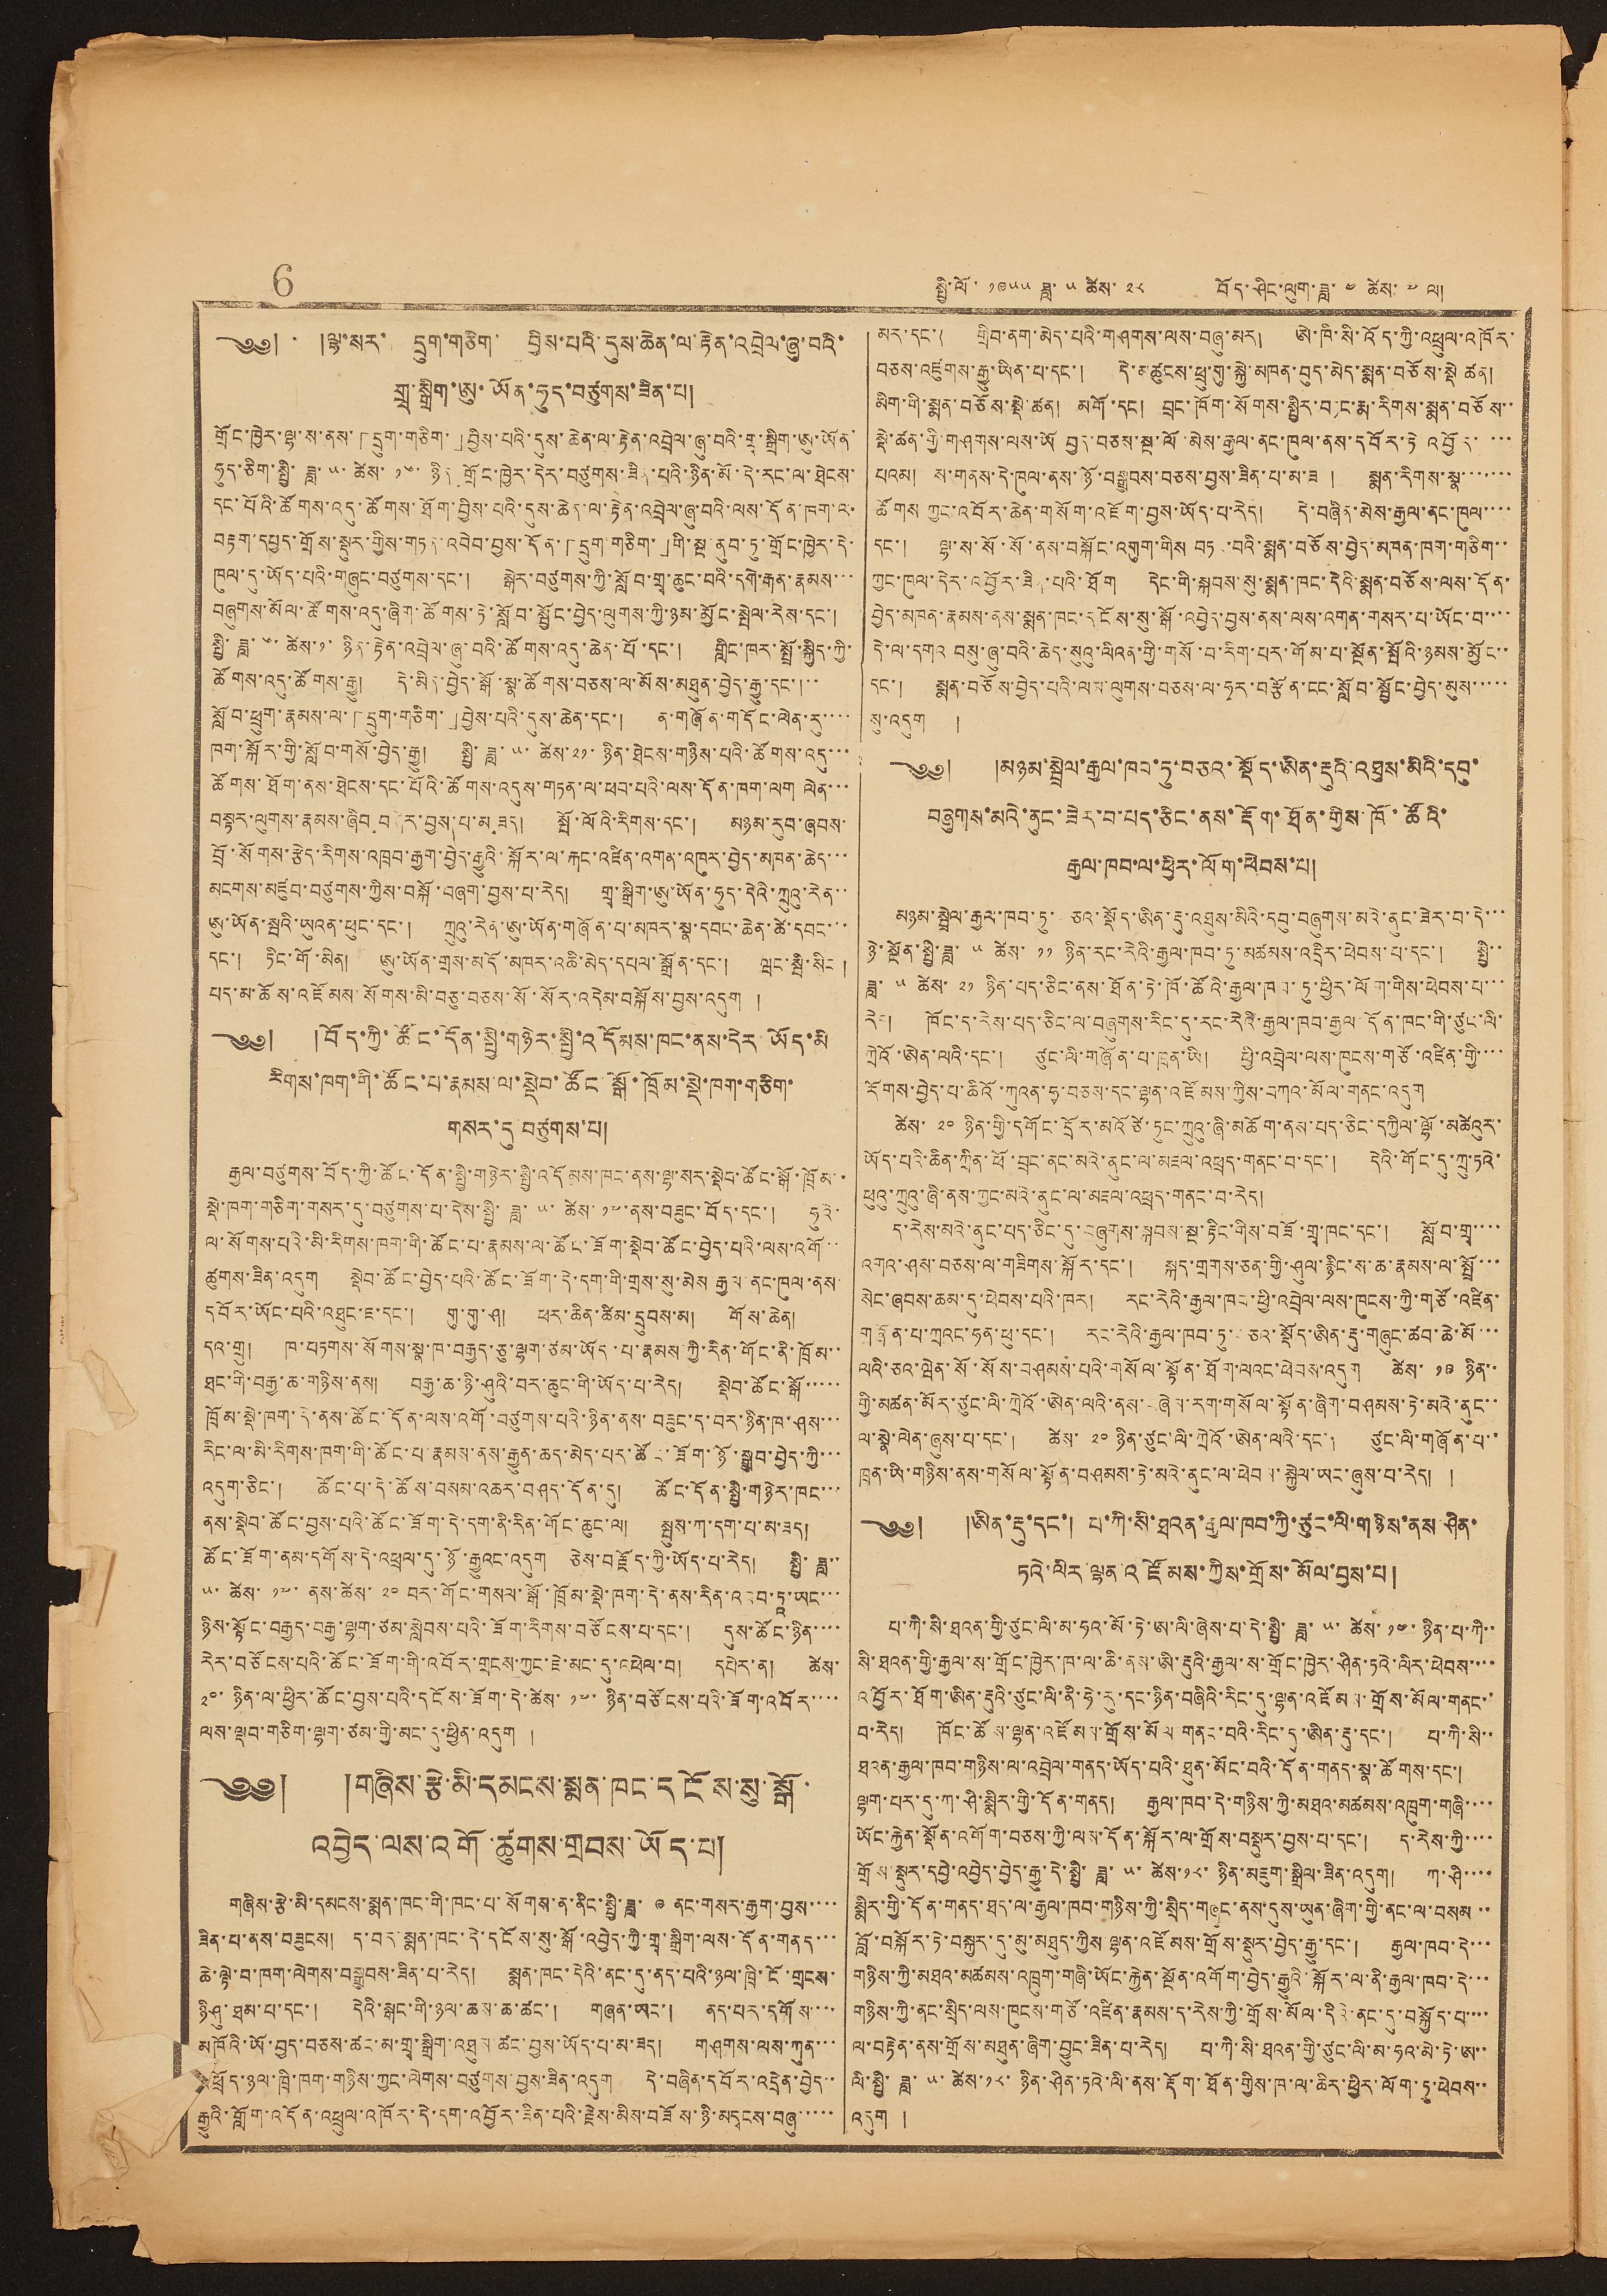6 སྤྱི་ལོ་ ༡༩༥༥ ཟླ་ ༥ ཚེས་ ༢༨ བོད་ཤིང་ལུག་ཟླ་ ༤ ཚེས་ ༧ ལ།
༄༅། །ལྷ་སར་ དྲུག་གཅིག་ བྱིས་པའི་དུས་ཆེན་ལ་རྟེན་འབྲེལ་ཞུ་བའི་
གྲྭ་སྒྲིག་ཨུ་ཡོན་ཧུད་བཙུགས་ཟིན་པ།
གྲོང་ཁྱེར་ལྷ་ས་ནས་「དྲུག་གཅིག་」བྱིས་པའི་དུས་ཆེན་ལ་རྟེན་འབྲེལ་ཞུ་བའི་གྲྭ་སྒྲིག་ཨུ་ཡོན་
ཧུད་ཅིག་སྤྱི་ཟླ་ ༥ ཚེས་ ༡༦ ཉིན་གྲོང་ཁྱེར་དེར་བཙུགས་ཟིན་པའི་ཉིན་མོ་དེ་རང་ལ་ཐེངས་
དང་པོའི་ཚོགས་འདུ་ཚོགས་ཐོག་བྱིས་པའི་དུས་ཆེན་ལ་རྟེན་འབྲེལ་ཞུ་བའི་ལས་དོན་ཁག་ལ་
བརྟག་དཔྱད་གྲོས་སྡུར་གྱིས་གཏན་འབེབ་བྱས་དོན་「དྲུག་གཅིག་」གི་སྔ་ནུབ་ཏུ་གྲོང་ཁྱེར་དེ་
ཁུལ་དུ་ཡོད་པའི་གཞུང་བཙུགས་དང་། སྒེར་བཙུགས་ཀྱི་སློབ་གྲྭ་ཆུང་བའི་དགེ་རྒན་རྣམས་་་
བཞུགས་མོལ་ཚོགས་འདུ་ཞིག་ཚོགས་ཏེ་སློབ་སྦྱོང་བྱེད་ལུགས་ཀྱི་ཉམ་མྱོང་སྤེལ་རེས་དང་།
སྤྱི་ཟླ་ ༦ ཚེས་ ༡ ཉིན་རྟེན་འབྲེལ་ཞུ་བའི་ཚོགས་འདུ་ཆེན་པོ་དང་། གླིང་ཁར་སྤྲོ་སྐྱིད་ཀྱི་
ཚོགས་འདུ་ཚོགས་རྒྱུ། དེ་མིན་བྱེད་སྒོ་སྣ་ཚོགས་བཅས་ལ་མོས་མཐུན་བྱེད་རྒྱུ་དང་།་་
སློབ་ཕྲུག་རྣམས་ལ་「དྲུག་གཅིག་」བྱེས་པའི་དུས་ཆེན་། ན་གཞོན་གདོང་ལེན་རུ་་་་
ཁག་སྐོར་གྱི་སློབ་གསོ་བྱེད་རྒྱུ། སྤྱི་ཟླ་ ༥ ཚེས་ ༢༡ ཉིན་ཐེངས་གཉིས་པའི་ཚོགས་འདུ་་་
ཚོགས་ཐོག་ནས་ཐེངས་དང་པོའི་ཚོགས་འདུས་གཏན་ལ་ཕབ་པའི་ལས་དོན་ཁག་ལག ལེན་་་
བསྟར་ལུགས་རྣམས་ཞིབ བཤེར་བྱས་པ་མ་ཟད། སྤོ་ལོའི་རིགས་དང་། མཉམ་རུབ་ཞབས་
བྲོ་སོགས་རྩེད་རིགས་འཁྲབ་རྒྱག་བྱེད་རྒྱུའི་སྐོར་ལ་རྐང་འཛིན་འགན་འཁུར་བྱེད་མཁན་ཆེད་་་
མངགས་མཛུབ་བཙུགས་ཀྱིས་བསྐོ་བཞག་བྱས་པ་རེད། གྲྭ་སྒྲིག་ཨུ་ཡོན་ཧུད་དེའི་ཀྲུའུ་རེན་་
ཨུ་ཡོན་སྦའི་ཡུའན་ཕུང་དང་། ཀྲུའུ་རེན་ཨུ་ཡོན་གཞོན་པ་མཁར་སྣ་དབང་་ཆེན་ཚེ་དབང་་་
དང་། ཏིང་གོ་མིན། ཨུ་ཡོན་གྲས་མདོ་མཁར་འཆི་མེད་དཔལ་སྒྲོན་དང་། ཝང་སྦི་སིང །
པད་མ་ཆོས་འཛོམས་སོགས་མི་བཅུ་བཅས་སོ་སོར་འདེམ་བསྐོས་བྱས་འདུག།
༄༅། །བོད་ཀྱི་ཚོང་དོན་སྤྱི་གཉེར་སྤྱི་འདོམས་ཁང་ནས་དེར་ཡོད་མི་
རིགས་ཁག་གི་ཚོང་པ་རྣམས་ལ་སྡེབ་ཚོང སྒོ་ཁྲོམ་སྡེ་ཁག་གཅིག་
གསར་དུ་བཙུགས་པ།
རྒྱལ་བཙུགས་བོད་ཀྱི་ཚོང་དོན་སྤྱི་གཉེར་སྤྱི་འདོམས་ཁང་ནས་ལྷ་སར་སྡེབ་ཚོང་སྒོ་ཁྲོམ་་
སྡེ་ཁག་གཅིག་གསར་དུ་བཙུགས་པ་དེས་སྤྱི་ཟླ་ ༥ ཚེས་ ༡༧ ནས་བཟུང་བོད་དང་། ཧུའེ་
ལ་སོགས་པའི་མི་རིགས་ཁག་གི་ཚོང་པ་རྣམས་ལ་ཚོང་ཟོག་སྡེབ་ཚོང་བྱེད་པའི་ལས་འགོ་་
ཚུགས་ཟིན་འདུག སྡེབ་ཚོང་བྱེད་པའི་ཚོང་ཟོག་དེ་དག་གི་གྲས་སུ་མེས་རྒྱལ་ནང་ཁུལ་ནས་
དབོར་ཡོང་པའི་འཐུང་ཇ་དང་། གུ་གུ་ཤ།། ཕར་ཆིན་ཚིམ་དྲུབས་མ། གོས་ཆེན།
དའ་གྲུ། ཁ་བཏགས་སོགས་སྣ་ཁ་བརྒྱད་ཅུ་ལྷག་ཙམ་ཡོད་པ་རྣམས་ཀྱི་རིན་གོང་ནི་ཁྲོམ་་
ཐང་གི་བརྒྱ་ཆ་གཉིས་ནས། བརྒྱ་ཆ་ཉི་ཤུའི་བར་ཆུང་གི་ཡོད་པ་རེད། སྡེབ་ཚོང་སྒོ་་་་་
ཁྲོམ་སྡེ་ཁག་དེ་ནས་ཚོང་དོན་ལས་འགོ་བཙུགས་པའི་ཉིན་ནས་བཟུང་ད་བར་ཉིན་ཁ་ཤས་་་
རིང་ལ་མི་རིགས་ཁག་གི་ཚོང་པ་རྣམས་ནས་རྒྱུན་ཆད་མེད་པར་ཚོང་ཟོག་ཉོ་སྒྲུབ་བྱེད་ཀྱི་་་
འདུག་ཅིང་། ཚོང་པ་དེ་ཚོས་བསམ་འཆར་བཤད་དོན་དུ། ཚོང་དོན་སྤྱི་གཉེར་ཁང་་་
ནས་སྡེབ་ཚོང་བྱས་པའི་ཚོང་ཟོག་དེ་དག་ནི་རིན་གོང་ཆུང་ལ། སྤུས་ཀ་དག་པ་མ་ཟད།
ཚོང་ཟོག་ནམ་དགོས་དེ་འཕྲལ་དུ་ཉོ་རྒྱུའང་འདུག ཅེས་བརྗོད་ཀྱི་ཡོད་པ་རེད། སྤྱི་ཟླ་་
༥ ཚེས་ ༡༧ ནས་ཚེས་ ༢༠ བར་གོང་གསལ་སྒོ་ཁྲོམ་སྡེ་ཁག་དེ་ནས་རིན་འབབ་ཏཱ་ཡང་་་
ཉིས་སྟོང་བརྒྱད་བརྒྱ་ལྷག་ཙམ་སླེབས་པའི་ཟོག་རིགས་བཙོངས་པ་དང་། དུས་ཚོང་ཉིན་་་་
རེར་བཙོངས་པའི་ཚོང་ཟོག་གི་འབོར་གྲངས་ཀྱང་ཇེ་མང་དུ་འཕེལ་བ། དཔེར་ན། ཚེས་
༢༠ ཉིན་ལ་ཕྱིར་ཚོང་བྱས་པའི་དངོས་ཟོག་དེ་ཚེས་ ༡༧ ཉིན་བཙོངས་པའི་ཟོག་འབོར་་་་
ལས་ལྡབ་གཅིག་ལྷག་ཙམ་གྱི་མང་དུ་ཕྱིན་འདུག།།
༄༅། །གཞིས་རྩེ་མི་དམངས་སྨན་ཁང་དངོས་སུ་སྒོ་
འབྱེད་ལས་འགོ་ཚུགས་གྲབས་ཡོད་པ།
གཞིས་རྩེ་མི་དམངས་སྨན་ཁང་གི་ཁང་པ་སོགས་ན་ནིང་སྤྱི་ཟླ་ ༩ ནང་གསར་རྒྱག་བྱས་་་་
ཟིན་པ་ནས་བཟུངས། ད་བར་སྨན་ཁང་དེ་དངོས་སུ་སྒོ་འབྱེད་ཀྱི་གྲྭ་སྒྲིག་ལས་དོན་གནད་་་
ཆེ་ལྟེ་བ་ཁག་ལེགས་བསྒྲུབས་ཟིན་པ་རེད། སྨན་ཁང་དེའི་ནང་དུ་ནད་པའི་ཉལ་ཁྲི་ངོ་གྲངས་
ཉི་ཤུ་ཐམ་པ་དང་། དེའི་སྒང་གི་ཉལ་ཆས་ཆ་ཚང་། གཞན་ཡང་། ནད་པར་དགོས་་་་
མཁོའི་ཡོ་བྱད་བཅས་ཚང་མ་གྲྭ་སྒྲིག་འཐུས ཚང་བྱས་ཡོད་པ་མ་ཟད། གཤགས་ལས་ཀུན་་་
འཕྲོད་ཉལ་ཁྲི་ཁག་གཉིས་ཀྱང་ལེགས་བཙུགས་བྱས་ཟིན་འདུག དེ་བཞིན་དབོར་འདྲེན་བྱེད་་
རྒྱུའི་གློག་འདོན་འཕྲུལ་འཁོར་དེ་དག་འབྱོར་ཟིན་པའི་རྗེས་མིས་བཟོས་ཉི་མདངས་བཞུ་་་་་
མར་དང་། གྲིབ་ནག་མེད་པའི་གཤགས་ལས་བཞུ་མར། ཨེ་ཁི་སི་འོད་ཀྱི་འཕྲུལ་འཁོར་
བཅས་འཛུགས་རྒྱུ་ཡིན་པ་དང་། དེ་མཚུངས་ཕྲུ་གུ་སྐྱེ་མཁན་བུད་མེད་སྨན་བཅོས་སྡེ་ཚན།
མིག་གི་སྨན་བཅོས་སྡེ་ཚན། མགོ་དང་། བྲང་ཁོག་སོགས་སྤྱིར་བཏང་རྨ་རིགས་སྨན་བཅོས་་
སྡེ་ཚན་གྱི་གཤགས་ལས་ཡོ བྱད་བཅས་སྔ་ལོ་མེས་རྒྱལ་ནང་ཁུལ་ནས་དབོར་ཏེ འབྱོར་་་་
པའམ། ས་གནས་དེ་ཁུལ་ནས་ཉོ་བསྒྲུབས་བཅས་བྱས་ཟིན་པ་མ་ཟད ། སྨན་རིགས་སྣ་་་་་་་
ཚོགས ཀྱང་འབོར་ཆེན་གསོག་འཇོག་བྱས་ཡོད་པ་རེད། དེ་བཞིན་མེས་རྒྱལ་ནང་ཁུལ་་་་
དང་། ལྷ་ས་སོ་སོ་ནས་བསྐོང་འགུག་གིས བཏང་བའི་སྨན་བཅོས་བྱེད་མཁན་ཁག་གཅིག་་
ཀྱང་ཁུལ་དེར་འབྱོར་ཟིན་པའི་ཐོག དེང་གི་སྐབས་སུ་སྨན་ཁང་དེའི་སྨན་བཅོས་ལས་དོན་
བྱེད་མཁན་རྣམས་ནས་སྨན་ཁང་དངོས་སུ་སྒོ་འབྱེད་བྱས་ནས་ལས་འགན་གསར་པ་ཡོང་བ་་་་
དེ་ལ་དགའ བསུ་ཞུ་བའི་ཆེད་སུའུ་ལིའན་གྱི་གསོ་བ་རིག་པར་གོམ་པ་སྔོན་སྤོའི་ཉམས་མྱོང་་
དང་། སྨན་བཅོས་བྱེད་པའི་ལས་ལུགས་བཅས་ལ་ཧྭར་བརྩོན་ངང་སློབ་སྦྱོང་བྱེད་མུས་་་་་
སུ་འདུག།།
༄༅། །་མཉམ་སྦྲེལ་རྒྱལ་ཁབ་ཏུ་བཅའ་སྡོད་ཨིན་རྡུའི་འཐུས་མིའི་དབུ་
བཞུགས་མའེ་ནུང་ཟེར་བ་པད་ཅིང་ནས་རྡོག་ཐོན་གྱིས་ཁོ་ཚོའི་
རྒྱལ་ཁབ་ལ་ཕྱིར་ལོག་ཕེབས་པ།
མཉམ་སྦྲེལ་རྒྱལ་ཁབ་ཏུ་བཅའ་སྡོད་ཨིན་རྡུ་འཐུས་མིའི་དབུ་བཞུགས་མའེ་ནུང་ཟེར་བ་དེ་་་
ཉེ་སྔོན་སྤྱི་ཟླ་༥ཚེས་༡༡ཉིན་རང་རེའི་རྒྱལ་ཁབ་ཏུ་མཚམས་འདྲིར་ཕེབས་པ་དང་། སྤྱི་་
ཟླ་ ༥ ཚེས་ ༢༡ ཉིན་པད་ཅིང་ནས་ཐོན་ཏེ་ཁོ་ཚོའི་རྒྱལ་ཁབ་ཏུ་ཕྱིར་ལོག་གིས་ཕེབས་པ་་་
རེད། ཁོང་ད་རེས་པད་ཅིང་ལ་བཞུགས་རིང་དུ་རང་རེའི་རྒྱལ་ཁབ་རྒྱལ་དོན་ཁང་གི་ཙུང་ལི་
ཀྲེའོ་ཨེན་ལའི་དང་། ཙུང་ལི་གཞོན་པ་ཁྲན་ཡི། ཕྱི་འབྲེལ་ལས་ཁུངས་གཙོ་འཛིན་གྱི་་་་
རོགས་བྱེད་པ་ཆིའོ་ཀུའན་ཧྭ་བཅས་དང་ལྷན་འཛོམས་ཀྱིས་བཀའ་མོལ་གནང་འདུག
ཚེས་ ༢༠ ཉིན་གྱི་དགོང་དྲོར་མའོ་རྩེ་ཏུང་ཀྲུའུ་ཞི་མཆོག་ནས་པད་ཅིང་དཀྱིལ་ལྷོ་མཚེའུར་
ཡོད་པའི་ཆིན་ཀྲིན་ཕོ་བྲང་ནང་མའེ་ནུང་ལ་མཇལ་འཕྲད་གནང་བ་དང་། དེའི་གོང་དུ་ཀྲུ་ཏའེ་
ཕུའུ་ཀྲུའུ་ཞི་ནས་ཀྱང་མའེ་ནུང་ལ་མཇལ་འཕྲད་གནང་བ་རེད།
ད་རེས་མའེ་ནུང་པད་ཅིང་དུ་བཞུགས་སྐབས་སྔ་རྟིང་གིས་བཟོ་གྲྭ་ཁང་དང་། སློབ་གྲྭ་་་་
འགའ་ཤས་བཅས་ལ་གཟིགས་སྐོར་དང་། སྐད་གྲགས་ཅན་གྱི་ཤུལ་རྙིང་ས་ཆ་རྣམས་ལ་སྤྲོ་་་
སེང་ཞབས་ཆམ་དུ་ཕེབས་པའི་ཁར། རང་རེའི་རྒྱལ་ཁབ་ཕྱི་འབྲེལ་ལས་ཁུངས་ཀྱི་གཙོ་འཛིན་
གཞོན་པ་ཀྲའང་ཧན་ཕུ་དང་། རང་རེའི་རྒྱལ་ཁབ་དུ་བཅའ་སྡོད་ཨིན་རྡུ་གཞུང་ཚབ་ཆེ་མོ་་་
ལའི་ཅའ་ལྦེན་སོ་སོས་བཤམས་པའི་གསོལ་སྟོན་ཐོག་ལའང་ཕེབས་འདུག ཚེ་ ༡༩ ཉིན་་
གྱི་མཚན་མོར་ཙུང་ལི་ཀྲེའོ་ཨེན་ལའི་ནས་བཞེས་རག་གསོལ་སྟོན་ཞིག་བཤམས་ཏེ་མའི་ནུང་་
ལ་སྣེ་ལེན་ཞུས་པ་དང་། ཚེས་ ༢༠ ཉིན་ཙུང་ལི་ཀྲེའོ་ཨེན་ལའི་དང་། ཙུང་ལི་གཞོན་པ་་
ཁྲན་ཡི་གཉིས་ནས་གསོལ་སྟོན་བཤམས་ཏེ་མའེ་ནུང་ལ་ཕེབས་སྐྱེལ་ཡང་ཞུས་པ་རེད། །
༄༅། །ཨིན་རྡུ་དང་། པ་ཀི་སི་ཐའན་རྒྱལ་ཁབ་ཀྱི་ཙུང་ལི་གཉིས་ནས་ཤིན་
ཏའེ་ལིར་ལྷན འཛོམས་ཀྱིས་གྲོས་མོལ་བྱས་པ།
པ་ཀི་སི་ཐའན་གྱི་ཙུང་ལི་མ་ཧའ་མོ་ཏེ་ཨ་ལི་ཞེས་པ་དེ་སྤྱི་ཟླ་ ༥ ཚེས་ ༡༤ ཉིན་པ་ཀི་་
སི་ཐའན་གྱི་རྒྱལ་ས་གྲོང་ཁྱེར་ཁ་ལ་ཆི་ནས་ཨི་རྡུའི་རྒྱལ་ས་གྲོང་ཁྱེར་ཤིན་ཏའེ་ལིར་ཕེབས་་་་
འབྱོར་ཐོག་ཨིན་རྡུའི་ཙུང་ལི་ནི་ཧེ་རུ་དང་ཉིན་བཞིའི་རིང་དུ་ལྷན་འཛོམས་གྲོས་མོལ་གནང་་
བ་རེད། ཁོང་ཚོས་ལྷན་འཛོམས་གྲོས་མོལ གནང་བའི་རིང་དུ་ཨིན་རྡུ་དང་། པ་ཀི་སི་་
ཐའན་རྒྱལ་ཁབ་གཉིས་ལ་འབྲེལ་གནད་ཡོད་པའི་ཐུན་མོང་བའི་དོན་གནད་སྣ་ཚོགས་དང་།
ལྷག་པར་དུ་ཀ་ཤི་སྨིར་གྱི་དོན་གནད། རྒྱལ་ཁབ་དེ་གཉིས་ཀྱི་མཐའ་མཚམས་འཁྲུག་གཞི་་་་
ཡོང་རྐྱེན་སྔོན་འགོག་བཅས་ཀྱི་ལས་དོན་སྐོར་ལ་གྲོས་བསྡུར་བྱས་པ་དང་། ད་རེས་ཀྱི་་་་
གྲོས་སྡུར་དབྱེ་འབྱེད་བྱེད་རྒྱུ་དེ་སྤྱི་ཟླ་ ༥ ཚེས་ ༡༨ ཉིན་མཇུག་སྒྲིལ་ཟིན་འདུག། ཀ་ཤི་་་་
སྨིར་གྱི་དོན་གནད་ཐད་ལ་རྒྱལ་ཁབ་གཉིས་ཀྱི་སྲིད་གཞུང་ནས་དུས་ཡུན་ཞིག་གྱི་ནང་ལ་བསམ་་
བློ་བསྐོར་ཏེ་བསྐྱར་དུ་མུ་མཐུད་ཀྱིས་ལྷན་འཛོམས་གྲོས་སྡུར་བྱེད་རྒྱུ་དང་། རྒྱལ་ཁབ་དེ་་་
གཉིས་ཀྱི་མཐའ་མཚམས་འཁྲུག་གཞི་ཡོང་རྐྱེན་སྔོན་འགོག་བྱེད་རྒྱུའི་སྐོར་ལ་ནི་རྒྱལ་ཁབ་དེ་་་
གཉིས་ཀྱི་ནང་སྲིད་ལས་ཁུངས་གཙོ་འཛིན་རྣམས་ད་རེས་ཀྱི་གྲོས་མོལ་དིའི་ནང་དུ་བསྐྱོད་པ་་་་
ལ་བརྟེན་ནས་གྲོས་མཐུན་ཞིག་བྱུང་ཟིན་པ་རེད། པ་ཀི་སི་ཐའན་གྱི་ཙུང་ལི་མ་ཧའ་མེ་ཏེ་ཨ་་
ལི་སྤྱི་ཟླ་ ༥ ཚེས་ ༡༨ ཉིན་ཤིན་ཏའེ་ལི་ནས་རྡོག་ཐོན་གྱིས་ཁ་ལ་ཆིར་ཕྱིར་ལོག་ཏུ་ཕེབས་་
འདུག།།
